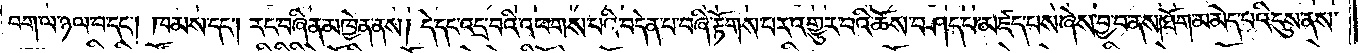བག་ལ་ཉལ་བ་དང༌། ཁམས་དང༌། རང་བཞིན་མཁྱེན་ནས། དེ་དང་འདྲ་བའི་འཕགས་པའི་བདེན་པ་བཞི་རྟོགས་པར་འགྱུར་བའི་ཆོས་བཤད་པ་མཛད་པས་ཞེས་བྱ་བ་ནས། ཐོག་མ་མེད་པའི་དུས་ནས་
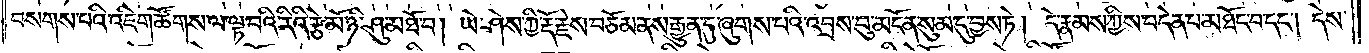བསགས་པའི་འཇིག་ཚོགས་ལ་ལྟ་བའི་རིའི་རྩེ་མོ་ཉི་ཤུ་མཐོ་བ། ཡེ་ཤེས་ཀྱི་རྡོ་རྗེས་བཅོམ་ནས་རྒྱུན་དུ་ཞུགས་པའི་འབྲས་བུ་མངོན་སུམ་དུ་བྱས་ཏེ། དེ་རྣམས་ཀྱིས་བདེན་པ་མཐོང་བ་དང༌། དེས་
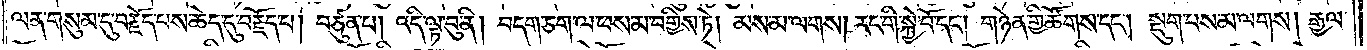ལན་གསུམ་དུ་བརྗོད་པས་ཆེད་དུ་བརྗོད་པ། བཙུན་པ། འདི་ལྟ་བུ་ནི། བདག་ཅག་ལ་ཕས་མ་བགྱིས་ཏེ། མས་མ་ལགས། རང་གི་སྐྱེ་བོ་དང༌། གཉེན་གྱི་ཚོགས་དང༌། སྡུག་པས་མ་ལགས། རྒྱལ་
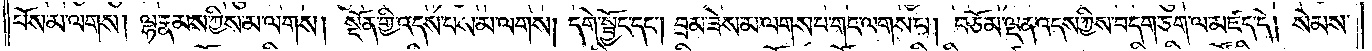པོས་མ་ལགས། ལྷ་རྣམས་ཀྱིས་མ་ལགས། སྔོན་གྱི་འདས་པས་མ་ལགས། དགེ་སྦྱོང་དང༌། བྲམ་ཟེས་མ་ལགས་པ་གང་ལགས་པ། བཅོམ་ལྡན་འདས་ཀྱིས་བདག་ཅག་ལ་མཛད་དེ། སེམས་
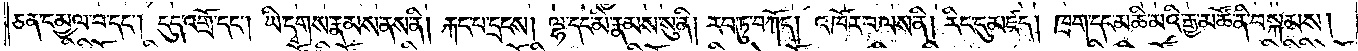ཅན་དམྱལ་བ་དང༌། དུད་འགྲོ་དང༌། ཡི་དྭགས་རྣམས་ནས་ནི། རྐང་པ་དྲངས། ལྷ་དང་མི་རྣམས་སུ་ནི། རབ་ཏུ་བཀོད། འཁོར་བ་ལས་ནི། རིང་དུ་མཛད། ཁྲག་དང་མཆི་མའི་རྒྱ་མཚོ་ནི་བསྐམས།
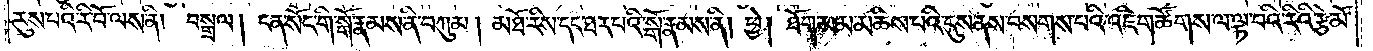རུས་པའི་རི་བོ་ལས་ནི། བསྒྲལ། ངན་སོང་གི་སྒོ་རྣམས་ནི་བཀུམ། མཐོ་རིས་དང་ཐར་པའི་སྒོ་རྣམས་ནི། ཕྱེ། ཐོག་མ་མ་མཆིས་པའི་དུས་ནས་བསགས་པའི་འཇིག་ཚོགས་ལ་ལྟ་བའི་རིའི་རྩེ་མོ་
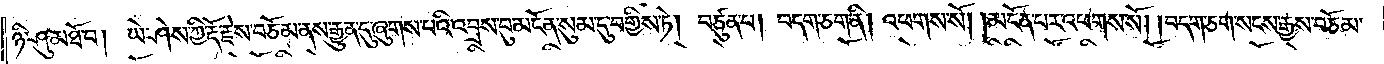ཉི་ཤུ་མཐོ་བ། ཡེ་ཤེས་ཀྱི་རྡོ་རྗེས་བཅོམ་ནས་རྒྱུན་དུ་ཞུགས་པའི་འབྲས་བུ་མངོན་སུམ་དུ་བགྱིས་ཏེ། བཙུན་པ། བདག་ཅག་ནི། འཕགས་སོ། །མངོན་པར་འཕགས་སོ། །བདག་ཅག་སངས་རྒྱས་བཅོམ་
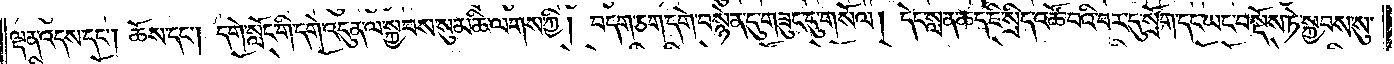ལྡན་འདས་དང༌། ཆོས་དང༌། དགེ་སློང་གི་དགེ་འདུན་ལ་སྐྱབས་སུ་མཆི་ལགས་ཀྱི། བདག་ཅག་དགེ་བསྙེན་དུ་གཟུང་དུ་གསོལ། དེང་སླན་ཆད་ཇི་སྲིད་འཚོ་བའི་བར་དུ་སྲོག་དང་ཡང་བསྔོས་ཏེ་སྐྱབས་སུ་
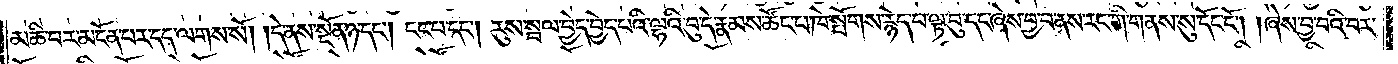མཆི་བར་མངོན་པར་དད་ལགས་སོ། །དེ་ནས་སྔོན་ཉ་དང༌། ངང་པ་དང༌། རུས་སྦལ་བྱེད་བྱེད་པའི་ལྷའི་བུ་དེ་རྣམས་ཚོང་པ་ཁེ་སྤོགས་རྙེད་པ་ལྟ་བུ་དང་ཞེས་བྱ་བ་ནས་རང་གི་གནས་སུ་དོང་ངོ༌། །ཞེས་བྱ་བའི་བར་
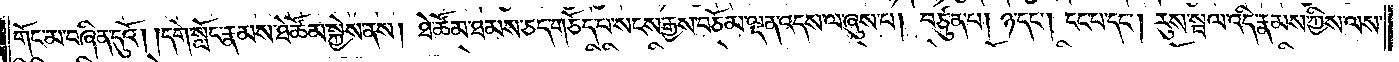གོང་མ་བཞིན་དུའོ། །དགེ་སློང་རྣམས་ཐེ་ཚོམ་སྐྱེས་ནས། ཐེ་ཚོམ་ཐམས་ཅད་གཅོད་པ་སངས་རྒྱས་བཅོམ་ལྡན་འདས་ལ་ཞུས་པ། བཙུན་པ། ཉ་དང༌། ངང་པ་དང༌། རུས་སྦལ་འདི་རྣམས་ཀྱིས་ལས་
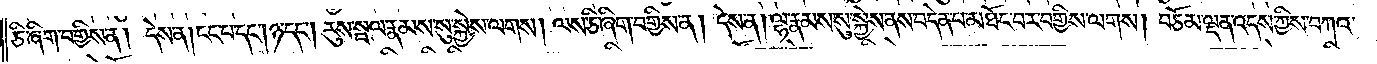ཅི་ཞིག་བགྱིས་ན། དེས་ན། ངང་པ་དང༌། ཉ་དང༌། རུས་སྦལ་རྣམས་སུ་སྐྱེས་ལགས། ལས་ཅི་ཞིག་བགྱིས་ན། དེས་ན། ལྷ་རྣམས་སུ་སྐྱེས་ནས་བདེན་པ་མཐོང་བར་བགྱིས་ལགས། བཅོམ་ལྡན་འདས་ཀྱིས་བཀའ་
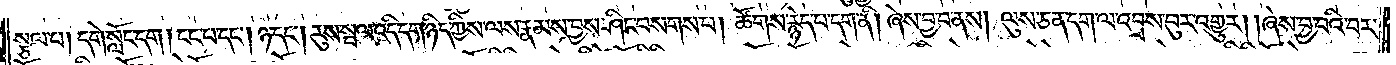སྩལ་པ། དགེ་སློང་དག། ངང་པ་དང༌། ཉ་དང༌། རུས་སྦལ་འདི་དག་ཉིད་ཀྱིས་ལས་རྣམས་བྱས་ཤིང་བསགས་པ། ཚོགས་རྙེད་པ་དག་ནི། ཞེས་བྱ་བ་ནས། ལུས་ཅན་དག་ལ་འབྲས་བུར་འགྱུར། །ཞེས་བྱ་བའི་བར་
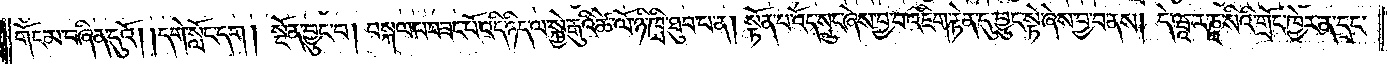གོང་མ་བཞིན་དུའོ། །དགེ་སློང་དག། སྔོན་བྱུང་བ། བསྐལ་པ་བཟང་པོ་འདི་ཉིད་ལ་སྐྱེ་རྒུའི་ཚེ་ལོ་ཉི་ཁྲི་ཐུབ་པ་ན། སྟོན་པ་འོད་སྲུང་ཞེས་བྱ་བ་འཇིག་རྟེན་དུ་བྱུང་སྟེ་ཞེས་བྱ་བ་ནས། དེ་ཝཱ་ར་ཎཱ་སིའི་གྲོང་ཁྱེར་ན་དྲང་
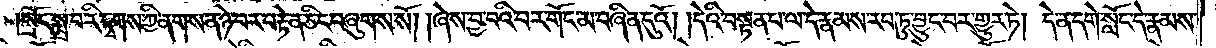སྲོང་སྨྲ་བ་རི་དྭགས་ཀྱི་ནགས་ན་ཉེ་བར་བརྟེན་ཅིང་བཞུགས་སོ། །ཞེས་བྱ་བའི་བར་གོང་མ་བཞིན་དུའོ། །དེའི་བསྟན་པ་ལ་དེ་རྣམས་རབ་ཏུ་བྱུང་བར་གྱུར་ཏེ། དེ་ན་དགེ་སློང་དེ་རྣམས་
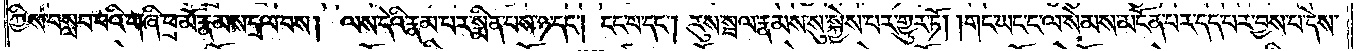ཀྱིས་བསླབ་པའི་གཞི་ཕྲ་མོ་རྣམས་དྲལ་བས། ལས་དེའི་རྣམ་པར་སྨིན་པས་ཉ་དང༌། ངང་པ་དང༌། རུས་སྦལ་རྣམས་སུ་སྐྱེས་པར་གྱུར་ཏོ། །གང་ཡང་ང་ལ་སེམས་མངོན་པར་དད་པར་བྱས་པ་དེས་
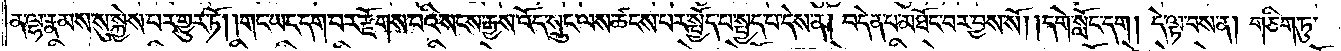ན་ལྷ་རྣམས་སུ་སྐྱེས་པར་གྱུར་ཏོ། །གང་ཡང་དག་པར་རྫོགས་པའི་སངས་རྒྱས་འོད་སྲུང་ལས་ཚངས་པར་སྤྱོད་པ་སྤྱད་པ་དེས་ན། བདེན་པ་མཐོང་བར་བྱས་སོ། །དགེ་སློང་དག། དེ་ལྟ་བས་ན། གཅིག་ཏུ་
